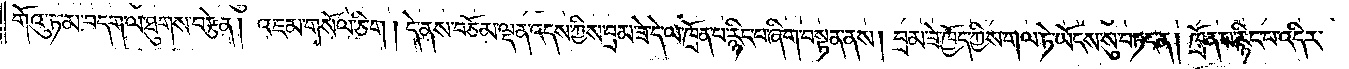གོའུ་ཏ་མ་བདག་ལ་ཐུགས་བརྩོན། །འཇམ་གསོལ་ཅིག །དེ་ནས་བཅོམ་ལྡན་འདས་ཀྱིས་བྲམ་ཟེ་དེ་ལ་ཁྲོན་པ་རྙིང་པ་ཞིག་བསྟན་ནས། བྲམ་ཟེ་ཁྱོད་ཀྱིས་གལ་ཏེ་ཡོངས་སུ་བཏང་ན། ཁྲོན་པ་རྙིང་པ་འདིར་
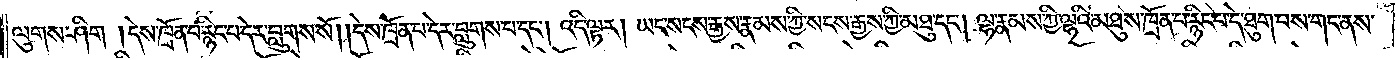ལུགས་ཤིག །དེས་ཁྲོན་པ་རྙིང་པ་དེར་བླུགས་སོ། །དེས་ཁྲོན་པ་དེར་བླུགས་པ་དང༌། འདི་ལྟར། ཡང་སངས་རྒྱས་རྣམས་ཀྱི་སངས་རྒྱས་ཀྱི་མཐུ་དང༌། ལྷ་རྣམས་ཀྱི་ལྷའི་མཐུས་ཁྲོན་ལ་རྙིང་པ་དེ་ཐུག་པས་གང་ནས་
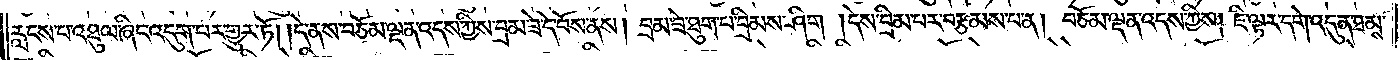རླངས་པ་འཐུལ་ཞིང་འདུག་པར་གྱུར་ཏོ། །དེ་ནས་བཅོམ་ལྡན་འདས་ཀྱིས་བྲམ་ཟེ་དེ་བོས་ནས། བྲམ་ཟེ་ཐུག་པ་བྲིམས་ཤིག །དེས་བྲིམ་པར་བརྩམས་པ་ན། བཅོམ་ལྡན་འདས་ཀྱིས། ཇི་ལྟར་དགེ་འདུན་ཐམས་
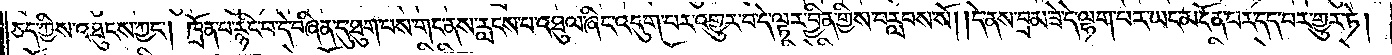ཅད་ཀྱིས་འཐུངས་ཀྱང༌། ཁྲོན་པ་རྙིང་པ་དེ་བཞིན་དུ་ཐུག་པས་གང་ན་རླངས་པ་འཐུལ་ཞིང་འདུག་པར་འགྱུར་པ་དེ་ལྟར་བྱིན་གྱིས་བརླབས་སོ། །དེ་ནས་བྲམ་ཟེ་དེ་ལྷག་པར་ཡང་མངོན་པར་དད་པར་གྱུར་ཏེ།
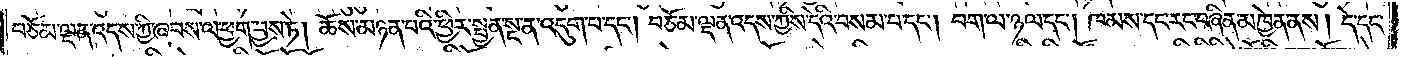བཅོམ་ལྡན་འདས་ཀྱི་ཞབས་ལ་ཕྱག་བྱས་ཏེ། ཆོས་མཉན་པའི་ཕྱིར་སྤྱན་སྔ་ན་འདུག་པ་དང༌། བཅོམ་ལྡན་འདས་ཀྱིས་དེའི་བསམ་པ་དང༌། བག་ལ་ཉལ་དང༌། ཁམས་དང་རང་བཞིན་མཁྱེན་ནས། དེ་དང་
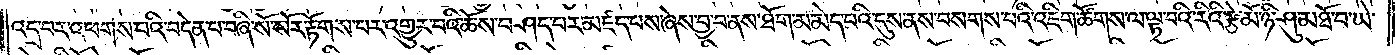འདྲ་བར་འཕགས་པའི་བདེན་པ་བཞི་སོ་སོར་རྟོགས་པར་འགྱུར་བའི་ཆོས་བཤད་པར་མཛད་པས་ཞེས་བྱ་བ་ནས་ཐོག་མ་མེད་པའི་དུས་ན་བསགས་པའི་འཇིག་ཚོགས་ལ་ལྟ་བའི་རིའི་རྩེ་མོ་ཉི་ཤུ་མཐོ་བ་ཡེ་
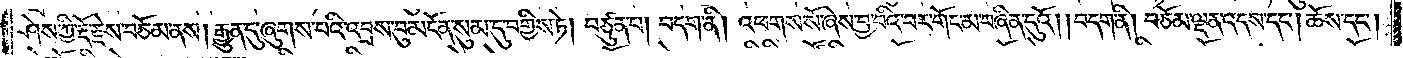ཤེས་ཀྱི་རྡོ་རྗེས་བཅོམ་ནས། རྒྱུན་དུ་ཞུགས་པའི་འབྲས་བུ་མངོན་སུམ་དུ་བགྱིས་ཏེ། བཙུན་པ། བདག་ནི། འཕགས་སོ་ཞེས་བྱ་བའི་བར་གོང་མ་བཞིན་དུའོ། །བདག་ནི། བཅོམ་ལྡན་འདས་དང༌། ཆོས་དང་
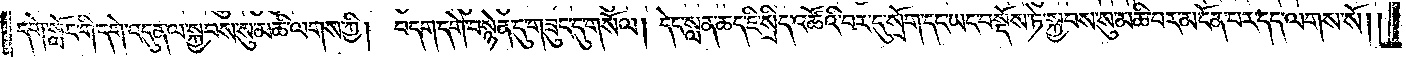དགེ་སློང་གི་དགེ་འདུན་ལ་སྐྱབས་སུ་མཆི་ལགས་ཀྱི། བདག་དགེ་བསྙེན་དུ་གཟུང་དུ་གསོལ། །དེང་སླན་ཆད་ཇི་སྲིད་འཚོའི་བར་དུ་སྲོག་དང་ཡང་བསྔོས་ཏེ་སྐྱབས་སུ་མཆི་བར་མངོན་པར་དད་ལགས་སོ། །
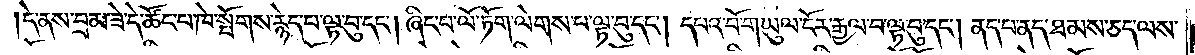དེ་ནས་བྲམ་ཟེ་དེ་ཚོང་པ་ཁེ་སྤོགས་རྙེད་པ་ལྟ་བུ་དང༌། ཞིང་པ་ལོ་ཏོག་ལེགས་པ་ལྟ་བུ་དང༌། དཔའ་བོ་གཡུལ་ངོར་རྒྱལ་བ་ལྟ་བུ་དང༌། ནད་པ་ནད་ཐམས་ཅད་ལས་
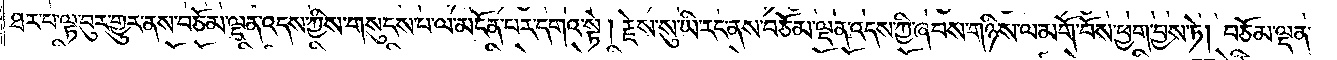ཐར་པར་ལྟ་བུར་གྱུར་ནས་བཅོམ་ལྡན་འདས་ཀྱིས་གསུངས་པ་ལ་མངོན་པར་དགའ་སྟེ། རྗེས་སུ་ཡི་རང་ནས་བཅོམ་ལྡན་འདས་ཀྱི་ཞབས་གཉིས་ལ་མགོ་བོས་ཕྱག་བྱས་ཏེ། བཅོམ་ལྡན་
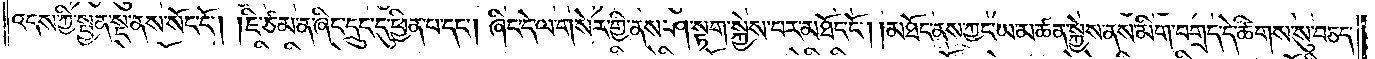འདས་ཀྱི་སྤྱན་སྔ་ནས་སོང་ངོ༌། །ཇི་ཙམ་ན་ཞིང་དྲུང་དུ་ཕྱིན་པ་དང༌། ཞིང་དེ་ལ་གསེར་གྱི་ནས་ཤ་སྟག་སྐྱེས་པར་མཐོང་ངོ༌། །མཐོང་ནས་ཀྱང་ཡ་མཚན་སྐྱེས་ནས་མིག་བགྲད་དེ་ཚིགས་སུ་བཅད་
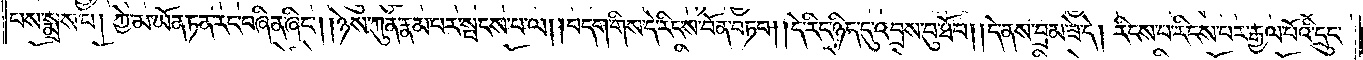པས་སྨྲས་པ། ཀྱེ་མ་ཡོན་ཏན་རང་བཞིན་ཞིང༌། །ཉེས་ཀུན་རྣམ་པར་སྤངས་པ་ལ། །བདག་གིས་དེ་རིང་ས་བོན་བཏབ། །དེ་རིང་ཉིད་དུ་འབྲས་བུ་ཐོབ། །དེ་ནས་བྲམ་ཟེ་དེ། རིངས་པ་རིངས་པར་རྒྱལ་པོའི་དྲུང་
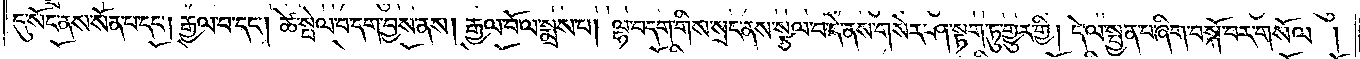དུ་སོང་ནས་སོན་པ་དང༌། རྒྱལ་བ་དང༌། ཚེ་སྤེལ་བ་དག་བྱས་ནས། རྒྱལ་པོ་ལ་སྨྲས་པ། ལྷ་བདག་གིས་སྲང་ནས་སྩལ་པ་དེ་ནས་གསེར་ཤ་སྟག་ཏུ་གྱུར་གྱི། དེ་ལ་སྤྱན་པ་ཞིག་བསྐོ་བར་གསོལ་།
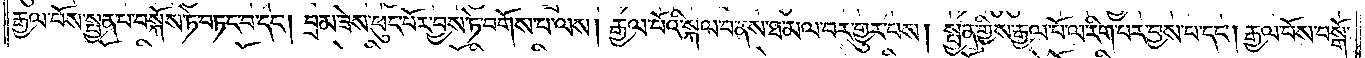རྒྱལ་པོས་སྤྱན་པ་བསྐོས་ཏེ་བཏང་བ་དང༌། བྲམ་ཟེས་ཕུང་པོར་བྱས་ཏེ་བགོས་པ་ལས། རྒྱལ་པོའི་སྐལ་བ་ནས་ཐ་མལ་པར་གྱུར་པས། སྤྱན་གྱིས་རྒྱལ་པོ་ལ་རིག་པར་བྱས་པ་དང༌། རྒྱལ་པོས་བསྒོ་
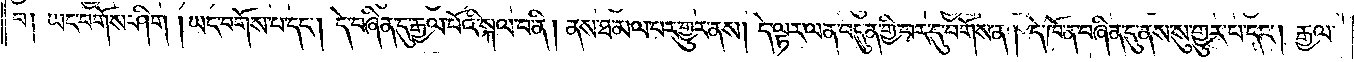བ། ཡང་བགོས་ཤིག །ཡང་བགོས་པ་དང༌། དེ་བཞིན་དུ་རྒྱལ་པོའི་སྐལ་བ་ནི། ནས་ཐ་མལ་པར་གྱུར་ནས། དེ་ལྟར་ལན་བདུན་གྱི་བར་དུ་བགོས་ན། དེ་ཁོ་ན་བཞིན་དུ་ནས་སུ་གྱུར་པ་དང༌། རྒྱལ་
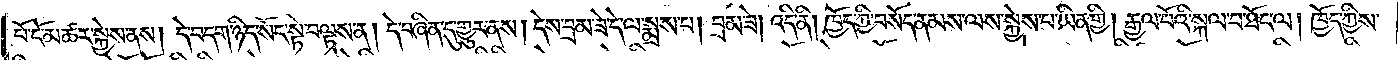བོ་ངོ་མཚར་སྐྱེས་ནས། དེ་བདག་ཉིད་སོང་སྟེ་བལྟས་ན། དེ་བཞིན་དུ་གྱུར་ནས། དེས་བྲམ་ཟེ་དེ་ལ་སྨྲས་པ། བྲམ་ཟེ། འདི་ནི། ཁྱོད་ཀྱི་བསོད་ནམས་ལས་སྐྱེས་པ་ཡིན་གྱི། རྒྱལ་པོའི་སྐལ་བ་ཐོང་ལ། ཁྱོད་ཀྱིས་
